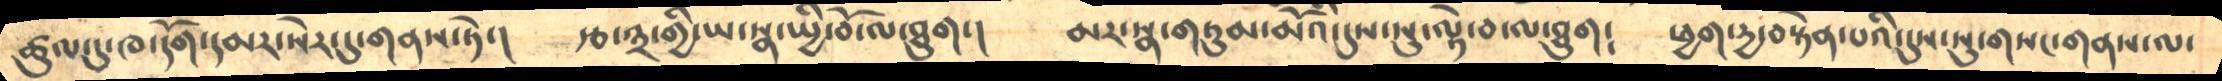ཚུལ་དུ་ཁ་དོག་དམར་སེར་དུ་གནས་ཏེ་།    རྩ་༣་གྱི་ཡ་སྣ་སྤྱི་བོ་ལ་ཐུག་།      མར་སྣ་གཏུམ་མོའི་དུས་སུ་ལྟེ་བ་ལ་ཐུག༴     ཕྱག་དྱ་བསྟེན་པའི་དུས་སུ་གསང་གནས་ལ་
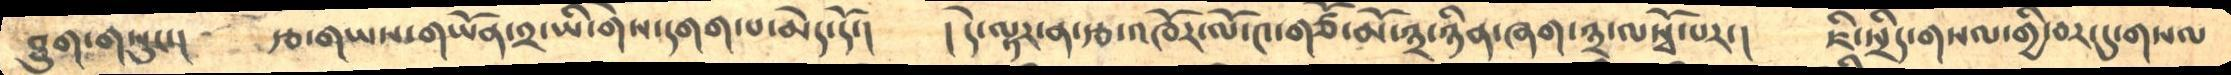ཐུག་གསུང་།      རྩ་གཡས་གཡོན་༢་ཡི་གེས་དགག་པ་མེད་དོ་།      ། དེ་ལྟར་ན་རྩ་འཁོར་ལོ་༤་གཙོ་མོ་༣་ཉིན་ཞག་༣་ལསྭོ་པར་།    ཇི་སྲིད་གསལ་གྱི་བར་དུ་གསལ
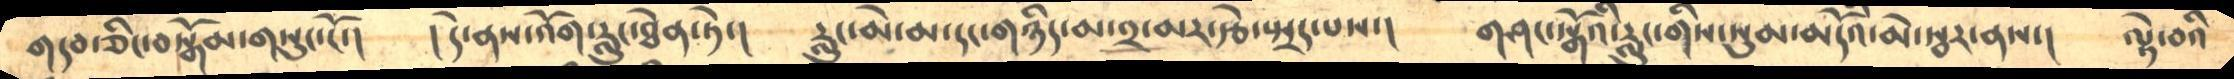གདབ་ཅིང་བསྒོམ་གསུང་ངོ་།      །དེ་ནས་འོག་རླུང་ཐེན་ཏེ་།     རླུང་མེ་མ་དང་གཉིད་མ་༢་མར་རྩེ་སྤྲད་པས་།      གཤང་སྒོའི་རླུང་གིས་སུམ་མདོའི་མེ་སྦར་ནས་།    ལྟེ་བའི
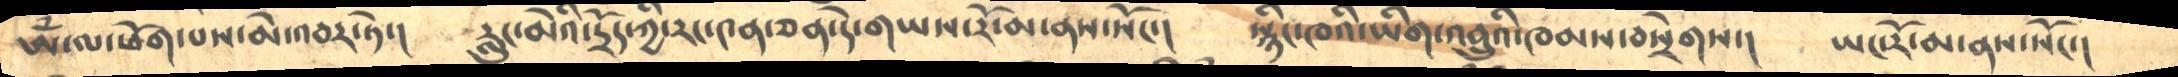ཨོཾ་ལ་ཕོག་པས་མེ་འབར་ཏེ་།     རླུང་མེའི་དྲོད་ཀྱི་རང་༤ན་ཅན་དེ་གཡས་རོ་མ་ནས་སོང་།     སྙིང་ཁའི་ཡིག་འབྲུའི་ཁམས་བསྲེགས་།    ཡང་རོ་མ་ནས་སོང་།
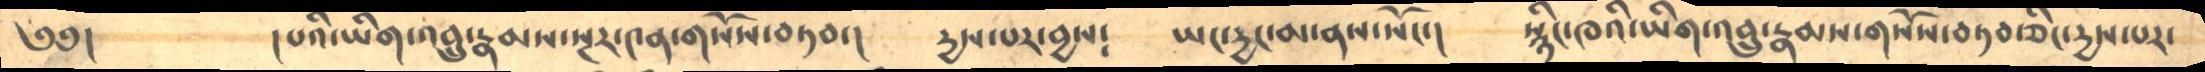༄༅།         །པའི་ཡིག་འབྲུ་རྣམས་སྔར་༤ན་གསོས་བཏབ་།       དྱས་པར་བྱས༴       ཡང་དྱང་མ་ནས་སོང་།     སྙིང་ཁའི་ཡིག་འབྲུ་རྣམས་གསོས་བཏབ་ཅིང་དྱས་པར་
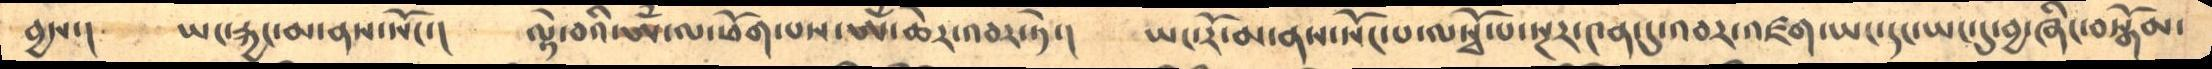བྱས་།      ཡང་རྐྱང་མ་ནས་སོང་།     ལྟེ་བའི་ཨོཾ་ལ་ཕོག་པས་ཨོཾ་ཆེར་འབར་ཏེ་།     ཡང་རོ་མ་ནས་སོང་པ་ལསྭོ་པ་སྔར་༤ན་དུ་འབར་འཛག་ཡང་དང་ཡང་དུ་བྱ་ཞིང་བསྒོམ་
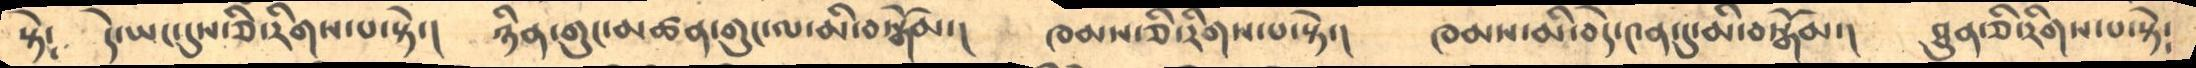སྟེ༴     དེ་ཡང་དུས་ཅི་རིགས་པ་སྟེ་།     ཉིན་གུང་མཚན་གུང་ལ་མི་བསྒོམ་།       ཁམས་ཅི་རིགས་པ་སྟེ་།      ཁམས་མི་བདེ་༤ན་དུ་མི་བསྒོམ་།     ཐུན་ཅི་རིགས་པ་སྟེ༴
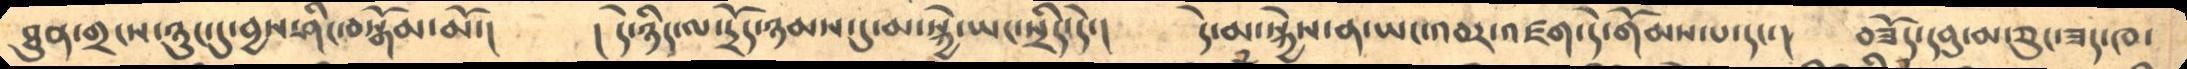ཐུན་གྲངས་ཉུང་དུ་བྱས་ཤིང་བསྒོམ་མོ་།         ། དེ་ཉིད་ལ་དྲོད་ཉམས་དུ་མ་སྐྱེ་ཡང་སྲིད་དེ་།        དེ་མ་སྐྱེས་ན་ཡང་འབར་འཛག་དེ་གོམས་པ་དང་།     བཟོད་དབུ་མ་ཅུང་ཟད་ཁ་
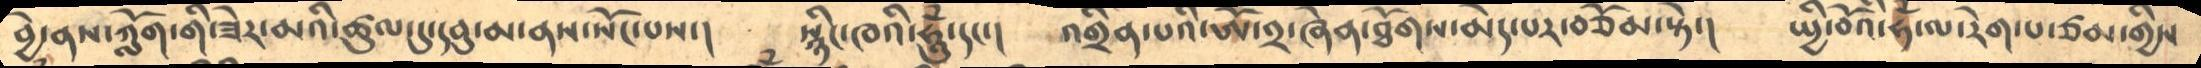བྱེ་ནས་ཀློག་གི་ཟེར་མའི་ཚུལ་དུ་དབུ་མ་ནས་སོང་པས་།      སྙིང་ཁའི་ཧཱུྃ་དང་།     འགྲིན་པའི་ཨོཾ་༢་ཞེན་ཐོགས་མེད་པར་བཅོམ་སྟེ་།     སྤྱི་བོའི་ཧྃ་ལ་རེག་པ་ཙམ་གྱིས
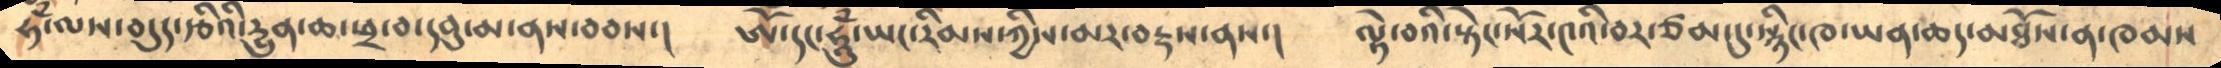ཧྃ་ལས་བདུད་རྩིའི་དྱུན་ཆ་ཕྲ་བ་དབུ་མ་ནས་བབས་།       ཨོཾ་དང་ཧཱུྃ་ཡང་རིམས་ཀྱིས་མར་བརྡས་ནས་།     ལྟེ་བའི་སྟེང་སོར་༤འི་བར་ཙམ་དུ་སྙིང་ཁ་ཡན་ཆད་མཐོས་ན་ཁམས
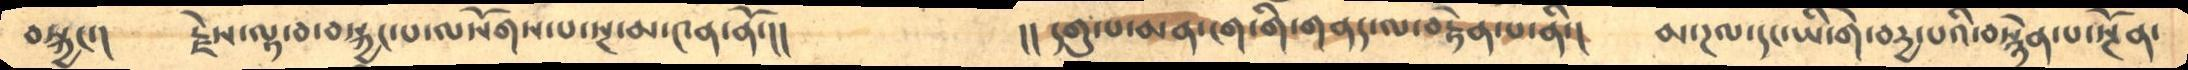བསྐྱང་།     རྗེས་ལྟ་བ་བསྐྱང་པ་ལསོགས་པ་སྔ་མ་༤ན་ནོ་།།           །།དགུ་པ་མན་ངག་གི་གནད་ལ་བརྟེན་པ་ནི་།      མ་ཌལ་དང་ཡི་གེ་བདྱ་པའི་བསྙེན་པ་སྔོན་
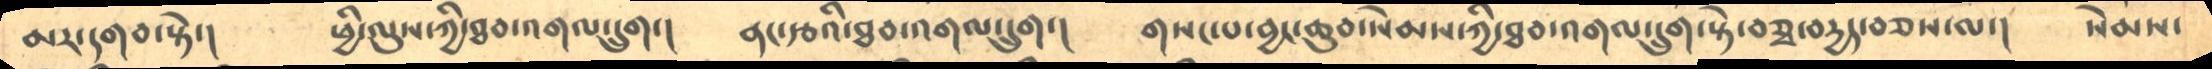མར་དགབ་སྟེ་།      ཕྱི་ལུས་ཀྱི་ཐབ་འགལ་དྲུག་།     ནང་རྩའི་ཐབ་འགལ་དྲུག་།     གསང་པ་བྱང་ཆུབ་སེམས་ཀྱི་ཐབ་འགལ་དྲུག་སྟེ་བཅྭ་བདྱད་བཅས་ལ་།     སེམས་
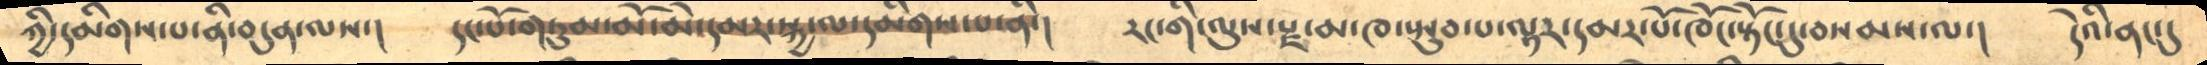ཀྱི་དམིགས་པ་ནི་བདུན་ལས་།     དང་པོ་གཏུམ་མོ་མེ་དམར་སྐྱ་ལ་དམིགས་པ་ནི་།     རང་གི་ལུས་རྫ་མ་ཁ་སྤུབ་པ་ལྟར་དམར་པོ་ཁོང་སྟོང་དུ་བསམས་ལ་།     དེའི་ནང་དུ
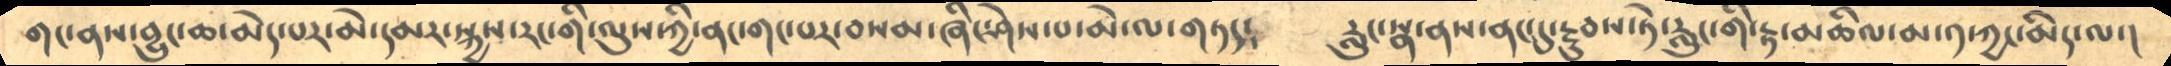གང་ནས་བྱུང་ཆ་མེད་པར་མེ་དམར་སྐྱས་རང་གི་ལུས་ཀྱི་ནང་གང་པར་བསམ་ཞིང་ཤེས་པ་མེ་ལ་གཏད༴       རླུང་སྣ་ནས་ནང་དུ་རྔུབས་ཏེ་རླུང་གི་རྟ་མཆིལ་མ་༡་ཀྱང་མིད་ལ་།
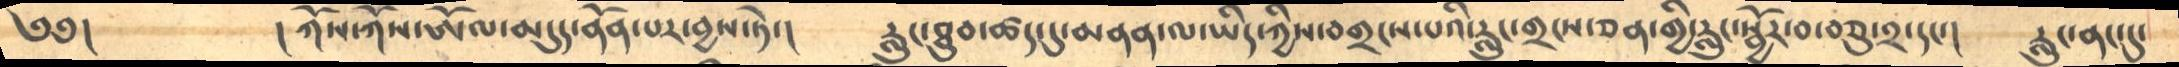༄༅།         །ཀོས་ཀོས་ཨོ་མདུད་ནོན་པར་བྱས་ཏེ་།      རླུང་ཐུབ་ཚད་དུ་མནན་ལ་ཡིད་ཀྱིས་བགྲངས་པའི་རླུང་གྲངས་ཅན་གྱི་རླུང་སྦྱོར་བ་བཅུ་༢་དང་།     རླུང་ནང་དུ་
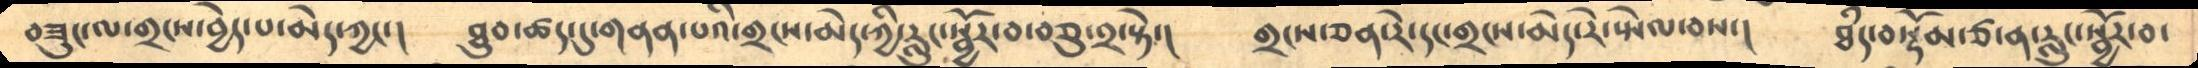བཟུང་ལ་གྲངས་བྱེད་པ་མེད་ཀྱང་།      ཐུབ་ཚད་དུ་གནན་པའི་གྲངས་མེད་ཀྱི་རླུང་སྦྱོར་བ་བཅུ་༢་སྟེ་།      གྲངས་ཅན་རེ་དང་གྲངས་མེད་རེ་སྤེལ་བས་།     ཐཾད་བསྡོམ་ཙ་ན་རླུང་སྦྱོར་བ་
